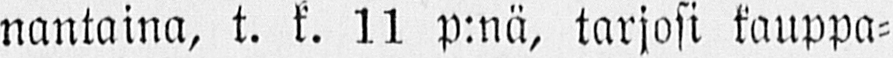nantaina, t. k. 11 p:nä, tarjosi kauppa-
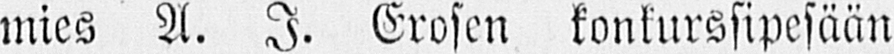mies A. J. Erosen konkurssipesään
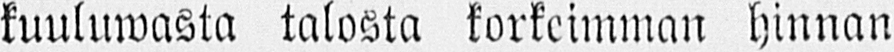kuuluwasta talosta korkeimman hinnan
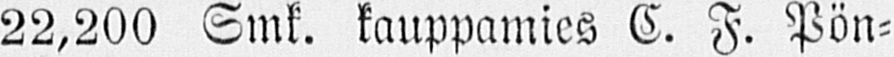22,200 Smk. kauppamies E. F. Pön-
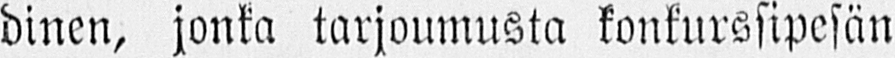dinen, jonka tarjoamasta konkurssipesän
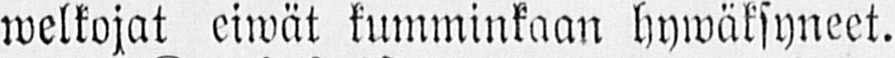welkojat eiwät kumminkaan hywäksyneet.
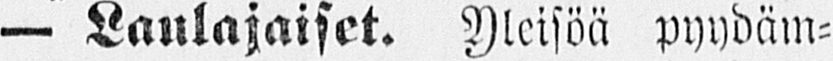— Laulajaiset. Yeisöä pyydäm-
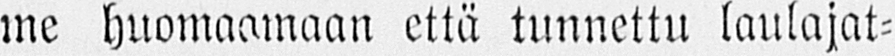me huomaamaan että tunnettu laulajat-
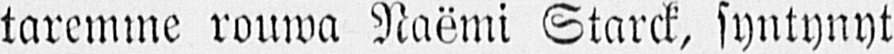taremme rouwa Namin Starck, syntynyt
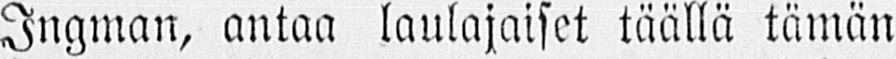Ingman, antaa laulajaiset täällä tämän
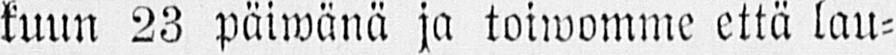kuun 23 päiwänä ja toiwomme että lau-
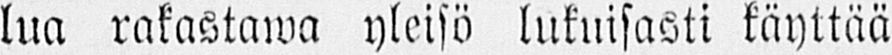lua rakastawa yleisö lukuisasti käyttää
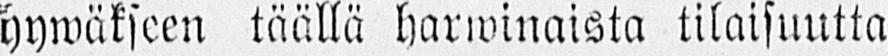hywäkseen täällä harwinaista tilaisuutta
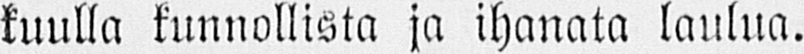kuulla kunnollista ja ihanata laulua.
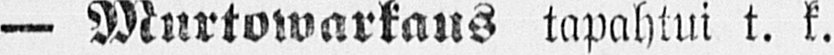— Murtowarkaus tapahtui t. k.
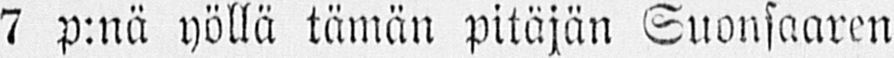7 p:nä yöllä tämän pitäjän Suonsaaren
